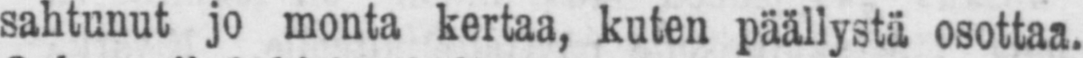sahtunut jo monta kertaa, kuten päällystä osottaa.
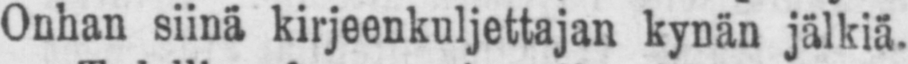Onhan siinä kirjeenkuljettajan kynän jälkiä.
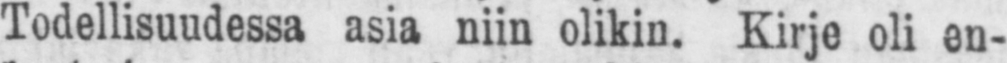Todellisuudessa asia niin olikin. Kirje oli en-
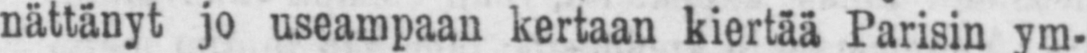nättänyt jo useampaan kertaan kiertää Parisin ym-
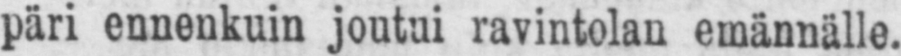päri ennenkuin joutui ravintolan emännälle.
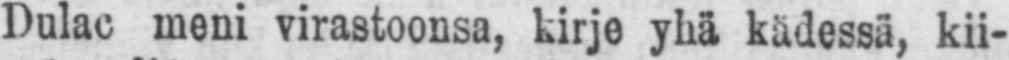Dulac meni virastoonsa, kirje yhä kädessä, kii-
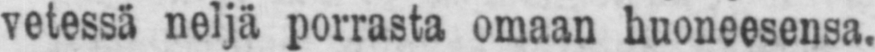vetessä neljä porrasta omaan huoneesensa.
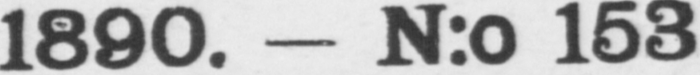189. —N:o 153
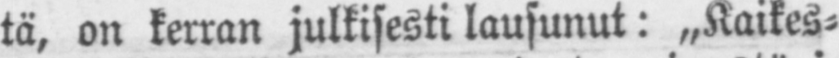tä, on kerran julkisesti lausunut: ˶Kaikes-
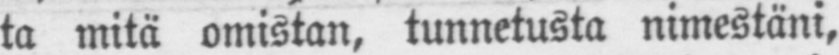ta mitä omistan, tunnetusta nimestäni,
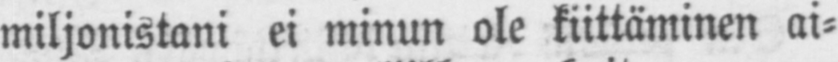miljonistani ei minun ole kiittäminen ai-
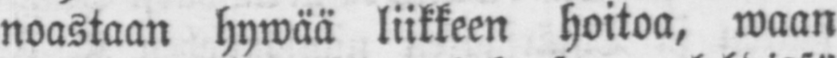noastaan hywää liikkeen hoitoa, waan
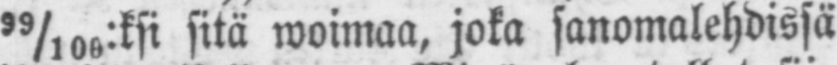99/100:ksi sitä woimaa, joka sanomalehdissä
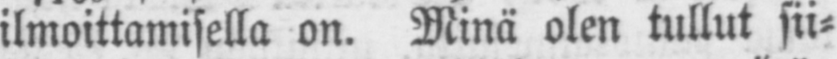ilmoittamisella on. Minä olen tullut sii-
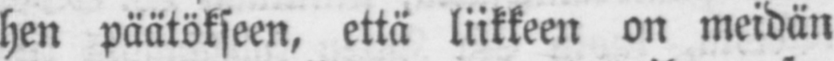hen päätökseen, että liikkeen on meidän
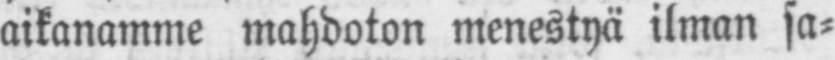aikanamme mahdoton menestyä ilman sa-
